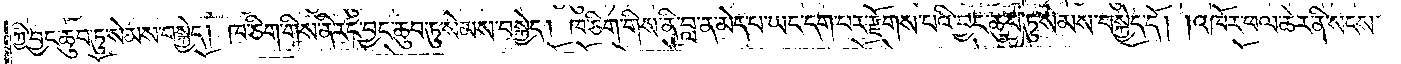ཀྱི་བྱང་ཆུབ་ཏུ་སེམས་བསྐྱེད། ཁ་ཅིག་གིས་ནི་རང་བྱང་ཆུབ་ཏུ་སེམས་བསྐྱེད། ཁ་ཅིག་གིས་ནི་བླ་ན་མེད་པ་ཡང་དག་པར་རྫོགས་པའི་བྱང་ཆུབ་ཏུ་སེམས་བསྐྱེད་དོ། །འཁོར་ཕལ་ཆེར་ནི་སངས་
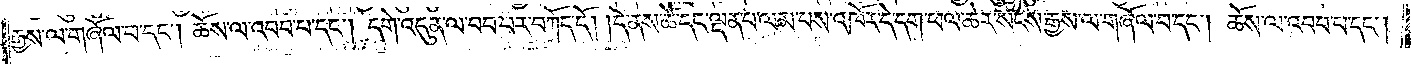རྒྱས་ལ་གཞོལ་བ་དང༌། ཆོས་ལ་འབབ་པ་དང༌། དགེ་འདུན་ལ་བབ་པར་བཀོད་དོ། །དེ་ནས་ཚེ་དང་ལྡན་པ་ལམ་པས་འཁོར་དེ་དག་ཕལ་ཆེར་སངས་རྒྱས་ལ་གཞོལ་བ་དང༌། ཆོས་ལ་འབབ་པ་དང༌།
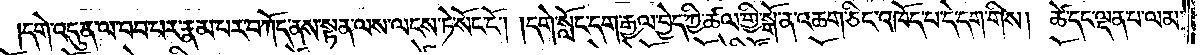དགེ་འདུན་ལ་བབ་པར་རྣམ་པར་བཀོད་ནས་སྟན་ལས་ལངས་ཏེ་སོང་ངོ༌། །དགེ་སློང་དག་རྒྱལ་བྱེད་ཀྱི་ཚལ་གྱི་སྒོ་ན་འཆག་ཅིང་འཁོད་པ་དེ་དག་གིས། ཚེ་དང་ལྡན་པ་ལམ་
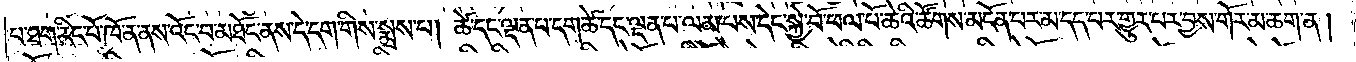པ་ཐག་རིང་པོ་ཁོ་ན་ནས་འོང་བ་མཐོང་ནས་དེ་དག་གིས་སྨྲས་པ། ཚེ་དང་ལྡན་པ་དག་ཚེ་དང་ལྡན་པ་ལམ་པས་དེང་སྐྱེ་བོ་ཕལ་པོ་ཆེའི་ཚོགས་མངོན་པར་མ་དད་པར་གྱུར་པར་བྱས་གོར་མ་ཆག་ན།
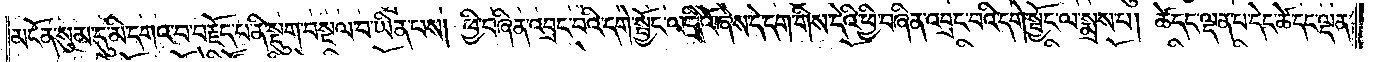མངོན་སུམ་དུ་མི་དགའ་བ་བརྗོད་པ་ནི་སྡུག་བསྔལ་བ་ཡིན་པས། ཕྱི་བཞིན་འབྲང་བའི་དགེ་སྦྱོང་ལ་དྲིའོ་ཞེས་དེ་དག་གིས་དེའི་ཕྱི་བཞིན་འབྲང་བའི་དགེ་སྦྱོང་ལ་སྨྲས་པ། ཚེ་དང་ལྡན་པ་དེང་ཚེ་དང་ལྡན་
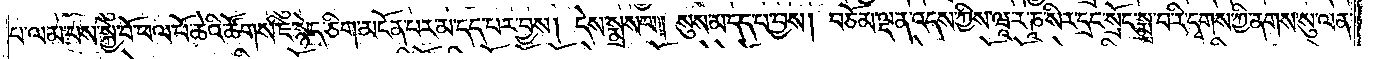པ་ལམ་པས་སྐྱེ་བོ་ཕལ་པོ་ཆེའི་ཚོགས་ཇི་སྙེད་ཅིག་མངོན་པར་མ་དད་པར་བྱས། དེས་སྨྲས་པ། སུས་མ་དད་པ་བྱས། བཅོམ་ལྡན་འདས་ཀྱིས་ཝཱ་ར་ཎཱ་སིར་དྲང་སྲོང་སྨྲ་བ་རི་དྭགས་ཀྱི་ནགས་སུ་ལན་
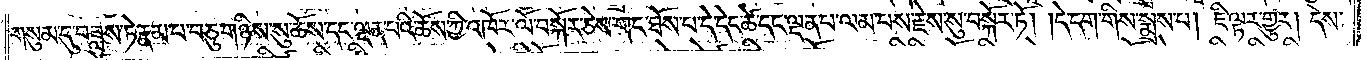གསུམ་དུ་བཟླས་ཏེ་རྣམ་པ་བཅུ་གཉིས་སུ་ཆོས་དང་ལྡན་པའི་ཆོས་ཀྱི་འཁོར་ལོ་བསྐོར་ཅེས་གང་ཐོས་པ་དེ་དེད་ཚེ་དང་ལྡན་པ་ལམ་པས་རྗེས་སུ་བསྐོར་ཏོ། །དེ་དག་གིས་སྨྲས་པ། ཇི་ལྟར་གྱུར། དེས་
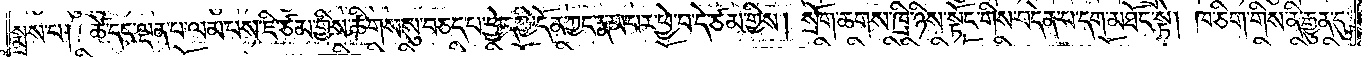སྨྲས་པ། ཚེ་དང་ལྡན་པ་ལམ་པས་ཇི་ཙམ་གྱིས་ཚིགས་སུ་བཅད་པ་ཕྱེད་ཀྱི་དོན་ཀྱང་རྣམ་པར་ཕྱེ་བ་དེ་ཙམ་གྱིས། སྲོག་ཆགས་ཁྲི་ཉིས་སྟོང་གིས་བདེན་པ་དག་མཐོང་སྟེ། ཁ་ཅིག་གིས་ནི་རྒྱུན་དུ་
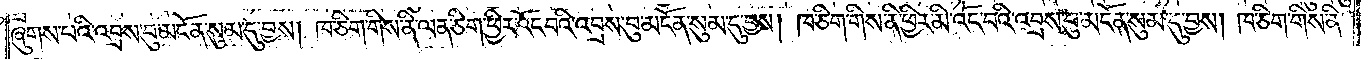ཞུགས་པའི་འབྲས་བུ་མངོན་སུམ་དུ་བྱས། ཁ་ཅིག་གིས་ནི་ལན་ཅིག་ཕྱིར་འོང་བའི་འབྲས་བུ་མངོན་སུམ་དུ་བྱས། ཁ་ཅིག་གིས་ནི་ཕྱིར་མི་འོང་བའི་འབྲས་བུ་མངོན་སུམ་དུ་བྱས། ཁ་ཅིག་གིས་ནི་
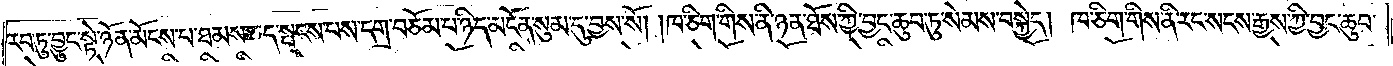རབ་ཏུ་བྱུང་སྟེ་ཉོན་མོངས་པ་ཐམས་ཅད་སྤངས་པས་དགྲ་བཅོམ་པ་ཉིད་མངོན་སུམ་དུ་བྱས་སོ། ཁ་ཅིག་གིས་ནི་ཉན་ཐོས་ཀྱི་བྱང་ཆུབ་ཏུ་སེམས་བསྐྱེད། ཁ་ཅིག་གིས་ནི་རང་སངས་རྒྱས་ཀྱི་བྱང་ཆུབ་
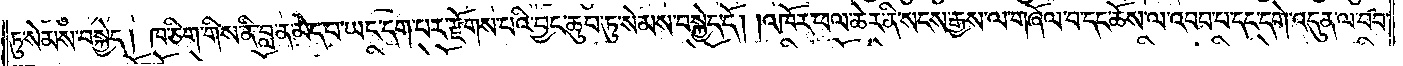ཏུ་སེམས་བསྐྱེད། ཁ་ཅིག་གིས་ནི་བླ་ན་མེད་པ་ཡང་དག་པར་རྫོགས་པའི་བྱང་ཆུབ་ཏུ་སེམས་བསྐྱེད་དོ། །འཁོར་ཕལ་ཆེར་ནི་སངས་རྒྱས་ལ་གཞོལ་བ་དང་ཆོས་ལ་འབབ་པ་དང་དགེ་འདུན་ལ་བབ་
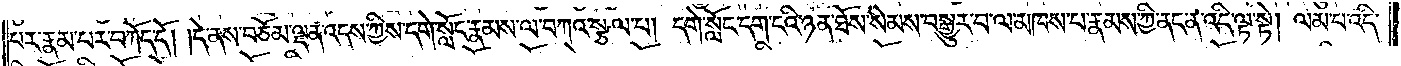པར་རྣམ་པར་བཀོད་དོ། །དེ་ནས་བཅོམ་ལྡན་འདས་ཀྱིས་དགེ་སློང་རྣམས་ལ་བཀའ་སྩལ་པ། དགེ་སློང་དག་ངའི་ཉན་ཐོས་སེམས་བསྒྱུར་བ་ལ་མཁས་པ་རྣམས་ཀྱི་ནང་ན་འདི་ལྟ་སྟེ། ལམ་པ་འདི་
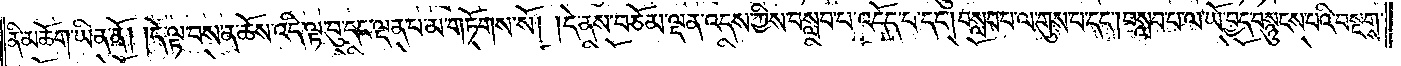ནི་མཆོག་ཡིན་ནོ། །དེ་ལྟ་བས་ན་ཆོས་འདི་ལྟ་བུ་དང་ལྡན་པ་མ་གཏོགས་སོ། །དེ་ནས་བཅོམ་ལྡན་འདས་ཀྱིས་བསླབ་པ་འདོད་པ་དང༌། བསླབ་པ་ལ་གུས་པ་དང༌། བསླབ་པ་ལ་ཡོ་བྱད་བསྙུངས་པའི་བསྔགས་
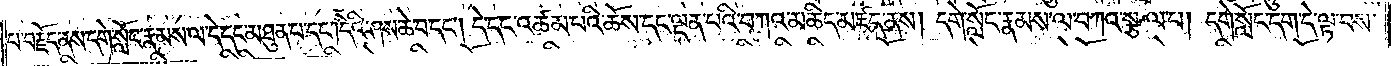པ་བརྗོད་ནས་དགེ་སློང་རྣམས་ལ་དེ་དང་མཐུན་པ་དང༌། དེའི་ཤས་ཆེ་བ་དང༌། དེ་དང་འཚམ་པའི་ཆོས་དང་ལྡན་པའི་བཀའ་མཆིད་མཛད་ནས། དགེ་སློང་རྣམས་ལ་བཀའ་སྩལ་པ། དགེ་སློང་དག་དེ་ལྟ་བས་
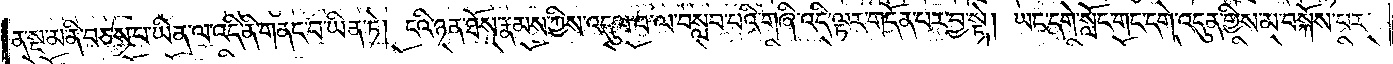ན་སྔ་མ་ནི་བཅས་པ་ཡིན་ལ་འདི་ནི་གནང་བ་ཡིན་ཏེ། ངའི་ཉན་ཐོས་རྣམས་ཀྱིས་འདུལ་བ་ལ་བསླབ་པའི་གཞི་འདི་ལྟར་གདོན་པར་བྱ་སྟེ། ཡང་དགེ་སློང་གང་དགེ་འདུན་གྱིས་མ་བསྐོས་པར་
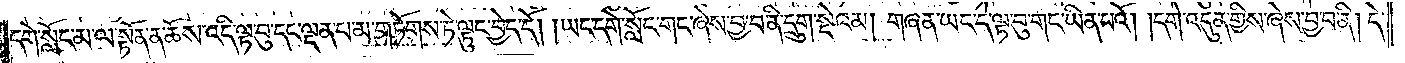དགེ་སློང་མ་ལ་སྟོན་ན་ཆོས་འདི་ལྟ་བུ་དང་ལྡན་པ་མ་གཏོགས་ཏེ་ལྟུང་བྱེད་དོ། །ཡང་དགེ་སློང་གང་ཞེས་བྱ་བ་ནི་དྲུག་སྡེའམ། གཞན་ཡང་དེ་ལྟ་བུ་གང་ཡིན་པའོ། །དགེ་འདུན་གྱིས་ཞེས་བྱ་བ་ནི། དེ་
